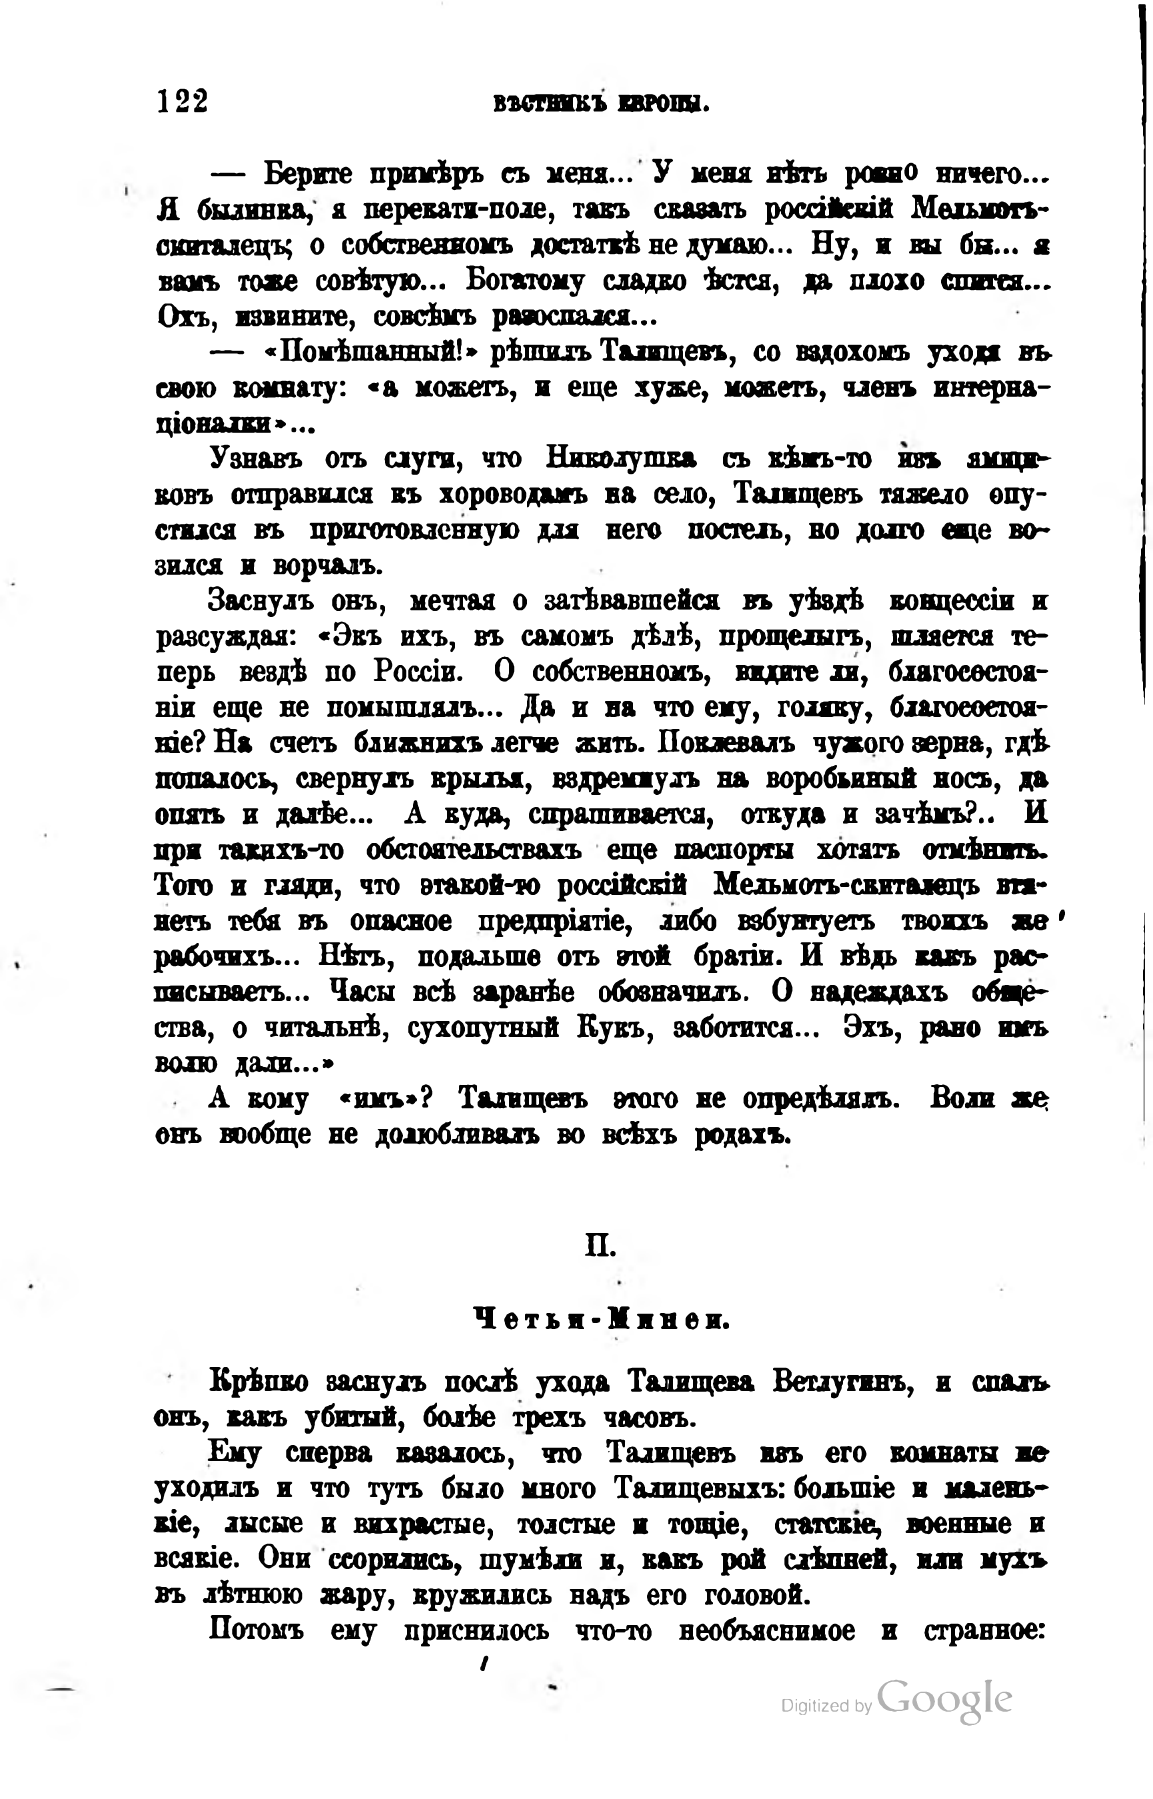122                       ВѢСТНИКЪ ЕВРОПЫ.
— Берите примѣръ съ меня... У меня нѣть ровно ничего… Я былинка, я перекати-поле, такъ сказать россійскій Мельмоть-скиталецъ; о собственномъ достаткѣ не думаю... Ну, и вы бы... я вамъ тоже совѣтую... Богатому сладко ѣстся, да плохо спится… Охъ, извините, совсѣмъ разоспался...
— «Помѣшанный!» рѣшилъ Талищевъ, со вздохомъ уходя въ свою комнату: «а можетъ, и еще хуже, можетъ, членъ интернаціоналки»...
Узнавъ отъ слуги, что Николушка съ кѣмъ-то изъ ямщиковъ отправился къ хороводамъ на село, Талищевъ тяжело опустился въ приготовленную для него постель, но долго еще возился и ворчалъ.
Заснулъ онъ, мечтая о затѣвавшейся въ уѣздѣ концессіи и разсуждая: «Экъ ихъ, въ самомъ дѣлѣ, прощелыгъ, шляется теперь вездѣ по Россіи. О собственномъ, видите ли, благосостояніи еще не помышлялъ... Да и на что ему, голяку, благосостояніе? На счетъ ближнихъ легче жить. Поклевалъ чужого зерна, гдѣ попалось, свернулъ крылья, вздремнулъ на воробьиный носъ, да опятъ и далѣе... А куда, спрашивается, откуда и зачѣмъ?.. И при такихъ-то обстоятельствахъ еще паспорта хотятъ отмѣнитъ. Того и гляди, что этакой-то россійскій Мельмотъ-скиталецъ втянетъ тебя въ опасное предпріятіе, либо взбунтуетъ твоихъ же рабочихъ... Нѣтъ, подальше отъ этой братіи. И вѣдь какъ расписываетъ... Часы всѣ заранѣе обозначилъ. О надеждахъ общества, о читальнѣ, сухопутный Кукъ, заботится... Эхъ, рано имъ волю дали...»
А кому «имъ»? Талищевъ этого не опредѣлялъ. Воли же онъ вообще не долюбливалъ во всѣхъ родахъ.
II.
Четьи-Минеи.
Крѣпко заснулъ послѣ ухода Талищева Ветлугинъ, и спалъ онъ, какъ убитый, болѣе трехъ часовъ.
Ему сперва казалось, что Талищевъ изъ его комнаты не уходилъ и что тутъ было много Талищевыхъ: большіе и маленькіе, лысые и вихрастые, толстые и тощіе, статскіе, военные и всякіе. Они ссорились, шумѣли и, какъ рой слѣпней, или мухъ въ лѣтнюю жару, кружились надъ его головой.
Потомъ ему приснилось что-то необъяснимое и странное:
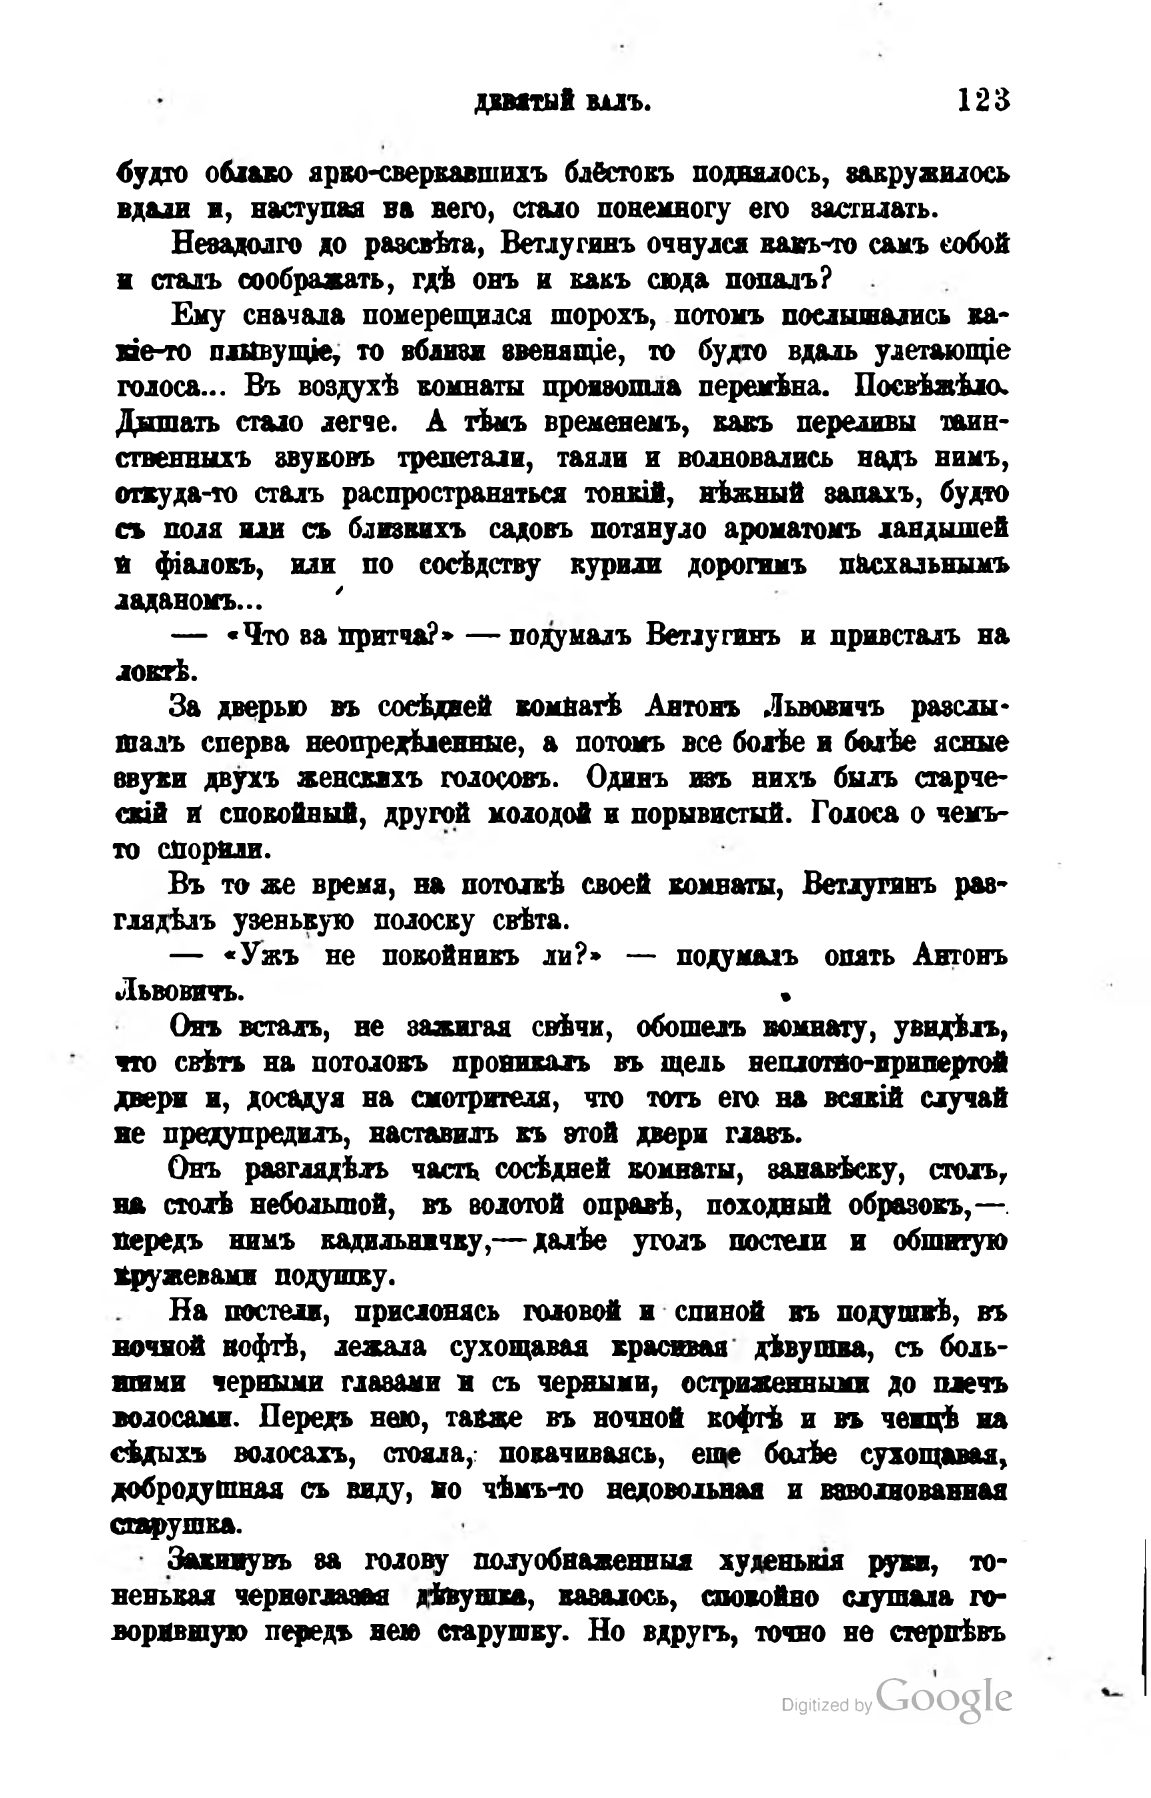ДЕВЯТЫЙ ВАЛЪ.                      123
будто облако ярко-сверкавшихъ блёстокъ поднялось, закружилось вдали и, наступая на него, стало понемногу его застилать.
Незадолго до разсвѣта, Ветлугинъ очнулся какъ-то самъ собой и сталъ соображать, гдѣ онъ и какъ сюда попалъ?
Ему сначала померещился шорохъ, потомъ послышались какіе-то плывущіе, то вблизи звенящіе, то будто вдаль улетающіе голоса... Въ воздухѣ комнаты произошла перемѣна. Посвѣжѣло. Дышать стало легче. А тѣмъ временемъ, какъ переливы таинственныхъ звуковъ трепетали, таяли и волновались надъ нимъ, откуда-то сталъ распространяться тонкій, нѣжный запахъ, будто съ поля или съ близкихъ садовъ потянуло ароматомъ ландышей и фіалокъ, или по сосѣдству курили дорогимъ пасхальнымъ ладаномъ...
— «Что за притча?» — подумалъ Ветлугинъ и привсталъ на локтѣ.
За дверью въ сосѣдней комнатѣ Антонъ Львовичъ разслышалъ сперва неопредѣленные, а потомъ все болѣе и болѣе ясные звуки двухъ женскихъ голосовъ. Одинъ изъ нихъ былъ старческій и спокойный, другой молодой и порывистый. Голоса о чемъ-то спорили.
Въ то же время, на потолкѣ своей комнаты, Ветлугинъ разглядѣлъ узенькую полоску свѣта.
— «Ужъ не покойникъ ли?» — подумалъ опять Антонъ Львовичъ.                                      
Онъ всталъ, не зажигая свѣчи, обошелъ комнату, увидѣлъ, что свѣтъ на потолокъ проникалъ въ щель неплотно-припертой двери и, досадуя на смотрителя, что тотъ его на всякій случай не предупредилъ, наставилъ къ этой двери глазъ.
Онъ разглядѣлъ часть сосѣдней комнаты, занавѣску, столъ, на столѣ небольшой, въ золотой оправѣ, походный образокъ, — передъ нимъ кадильничку, — далѣе уголъ постели и обшитую кружевами подушку.
На постели, прислонясь головой и спиной къ подушкѣ, въ ночной кофтѣ, лежала сухощавая красивая дѣвушка, съ большими черными глазами и съ черными, остриженными до плечъ волосами. Передъ нею, также въ ночной кофтѣ и въ чепцѣ на сѣдыхъ волосахъ, стояла, покачиваясь, еще болѣе сухощавая, добродушная съ виду, но чѣмъ-то недовольная и взволнованная старушка.
Закинувъ за голову полуобнаженныя худенькія руки, тоненькая черноглазая дѣвушка, казалось, спокойно слушала говорившую передъ нею старушку. Но вдругъ, точно не стерпѣвъ
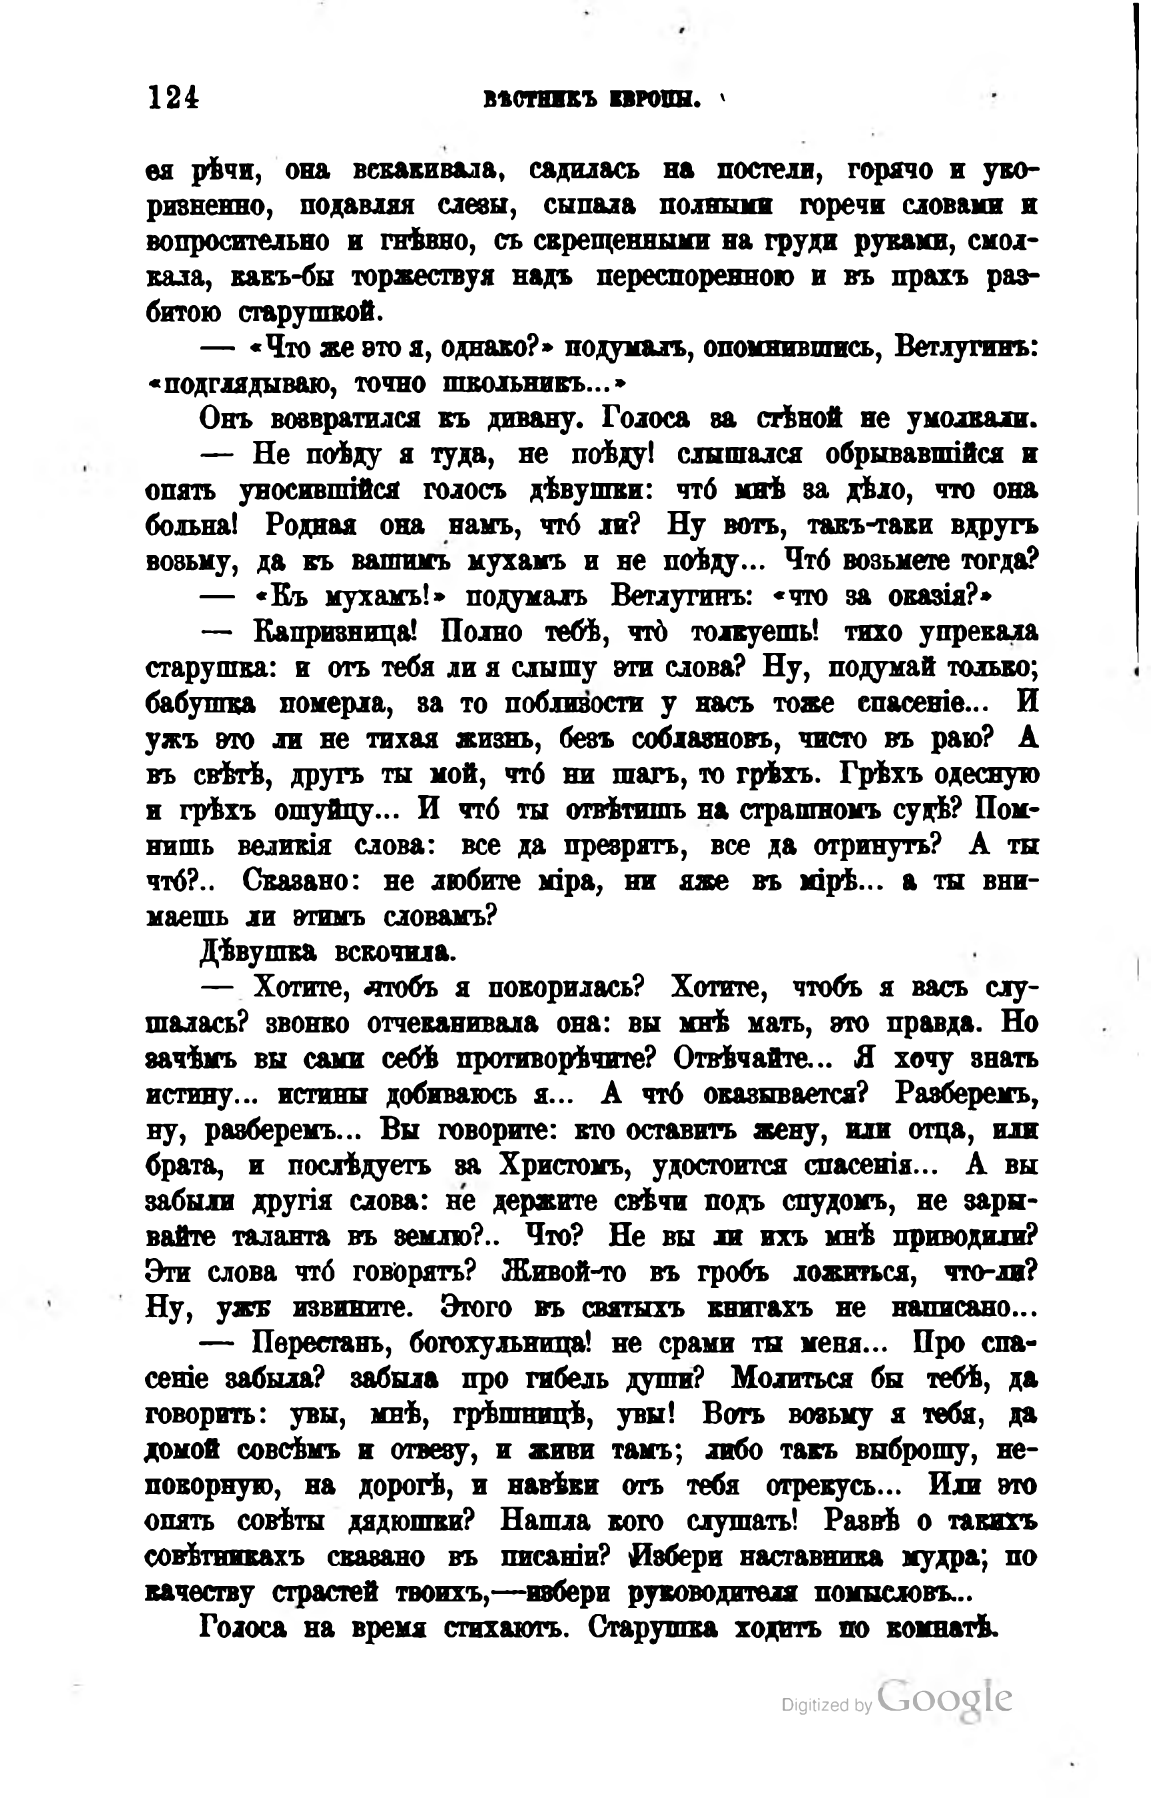124                     ВѢСТНИКЪ ЕВРОПЫ.
ея рѣчи, она вскакивала, садилась на постели, горячо и укоризненно, подавляя слезы, сыпала полными горечи словами и вопросительно и гнѣвно, съ скрещенными на груди руками, смолкала, какъ-бы торжествуя надъ переспоренною и въ прахъ разбитою старушкой.
— «Что же это я, однако?» подумалъ, опомнившись, Ветлугинъ: «подглядываю, точно школьникъ...»
Онъ возвратился къ дивану. Голоса за стѣной не умолкали.
— Не поѣду я туда, не поѣду! слышался обрывавшійся и опять уносившійся голосъ дѣвушки: что мнѣ за дѣло, что она больна! Родная она намъ, что ли? Ну вотъ, такъ-таки вдругъ возьму, да къ вашимъ мухамъ и не поѣду... Что возьмете тогда?
— «Къ мухамъ!» подумалъ Ветлугинъ: «что за оказія?»
— Капризница! Полно тебѣ, что толкуешь! тихо упрекала старушка: и отъ тебя ли я слышу эти слова? Ну, подумай только; бабушка померла, за то поблизости у насъ тоже спасеніе... И ужъ это ли не тихая жизнь, безъ соблазновъ, чисто въ раю? А въ свѣтѣ, другъ ты мой, что ни шагъ, то грѣхъ. Грѣхъ одесную и грѣхъ ошуйцу... И что ты отвѣтишь на страшномъ судѣ? Помнишь великія слова: все да презрятъ, все да отринуть? А ты что?.. Сказано: не любите міра, ни яже въ мірѣ... а ты внимаешь ли этимъ словамъ?
Дѣвушка вскочила.
— Хотите, чтобъ я покорилась? Хотите, чтобъ я васъ слушалась? звонко отчеканивала она: вы мнѣ мать, это правда. Но зачѣмъ вы сами себѣ противорѣчите? Отвѣчайте... Я хочу знать истину... истины добиваюсь я... А что оказывается? Разберемъ, ну, разберемъ... Вы говорите: кто оставитъ жену, или отца, или брата, и послѣдуетъ за Христомъ, удостоится спасенія... А вы забыли другія слова: не держите свѣчи подъ спудомъ, не зарывайте таланта въ землю?.. Что? Не вы ли ихъ мнѣ приводили? Эти слова что говорятъ? Живой-то въ гробъ ложиться, что-ли? Ну, ужъ извините. Этого въ святыхъ книгахъ не написано...
— Перестань, богохульница! не срами ты меня... Про спасеніе забыла? забыла про гибель души? Молиться бы тебѣ, да говорить: увы, мнѣ, грѣшницѣ, увы! Вотъ возьму я тебя, да домой совсѣмъ и отвезу, и живи тамъ; либо такъ выброшу, непокорную, на дорогѣ, и навѣки отъ тебя отрекусь... Или это опять совѣты дядюшки? Нашла кого слушать! Развѣ о такихъ совѣтникахъ сказано въ писаніи? Избери наставника мудра; по качеству страстей твоихъ, — избери руководителя помысловъ...
Голоса на время стихаютъ. Старушка ходитъ по комнатѣ.